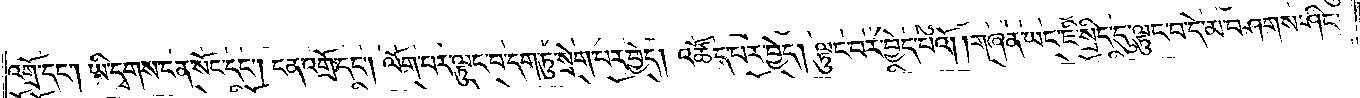འགྲོ་དང༌། ཡི་དྭགས་ངན་སོང་དང༌། ངན་འགྲོ་དང༌། ལོག་པར་ལྟུང་བ་དག་ཏུ་སྲེག་པར་བྱེད། འཚོད་པར་བྱེད། ལྟུང་བར་བྱེད་པའོ། །གཞན་ཡང་ཇི་སྲིད་དུ་ལྟུང་བ་དེ་མ་བཤགས་ཤིང་
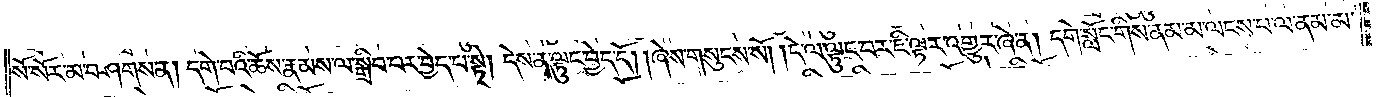སོ་སོར་མ་བཤགས་ན། དགེ་བའི་ཆོས་རྣམས་ལ་སྒྲིབ་པར་བྱེད་པ་སྟེ། དེས་ན་ལྟུང་བྱེད་དོ། །ཞེས་གསུངས་སོ། །དེ་ལ་ལྟུང་བར་ཇི་ལྟར་འགྱུར་ཞེ་ན། དགེ་སློང་གིས་ནམ་མ་ལངས་པ་ལ་ནམ་མ་
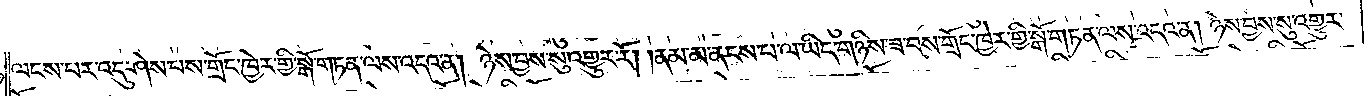ལངས་པར་འདུ་ཤེས་པས་གྲོང་ཁྱེར་གྱི་སྒོ་གཏན་ལས་འདའ་ན། ཉེས་བྱས་སུ་འགྱུར་རོ། །ནམ་མ་ནངས་པ་ལ་ཡིད་གཉིས་ཟ་བས་གྲོང་ཁྱེར་གྱི་སྒོ་གཏན་ལས་འདའ་ན། ཉེས་བྱས་སུ་འགྱུར་
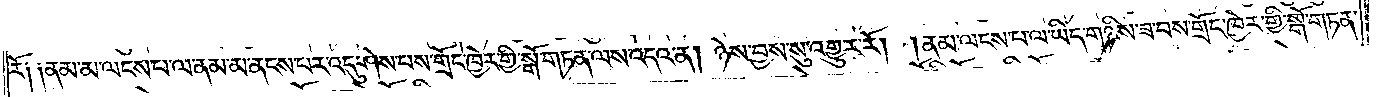རོ༑ ༑ནམ་མ་ལངས་པ་ལ་ནམ་མ་ནངས་པར་འདུ་ཤེས་པས་གྲོང་ཁྱེར་གྱི་སྒོ་གཏན་ལས་འདའ་ན། ཉེས་བྱས་སུ་འགྱུར་རོ། །ནམ་ལངས་པ་ལ་ཡིད་གཉིས་ཟ་བས་གྲོང་ཁྱེར་གྱི་སྒོ་གཏན་
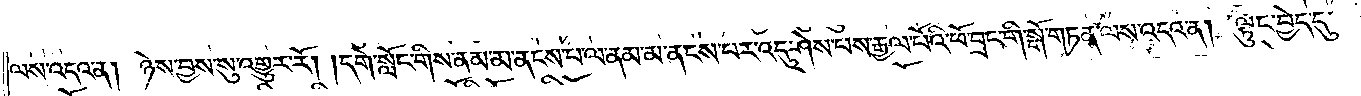ལས་འདའ་ན། ཉེས་བྱས་སུ་འགྱུར་རོ། །དགེ་སློང་གིས་ནམ་མ་ནངས་པ་ལ་ནམ་མ་ནངས་པར་འདུ་ཤེས་པས་རྒྱལ་པོའི་ཕོ་བྲང་གི་སྒོ་གཏན་ལས་འདའ་ན། ལྟུང་བྱེད་དུ་
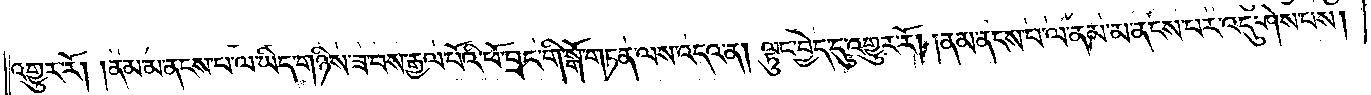འགྱུར་རོ། །ནམ་མ་ནངས་པ་ལ་ཡིད་གཉིས་ཟ་བས་རྒྱལ་པོའི་ཕོ་བྲང་གི་སྒོ་གཏན་ལས་འདའ་ན། ལྟུང་བྱེད་དུ་འགྱུར་རོ། །ནམ་ནངས་པ་ལ་ནམ་མ་ནངས་པར་འདུ་ཤེས་པས།
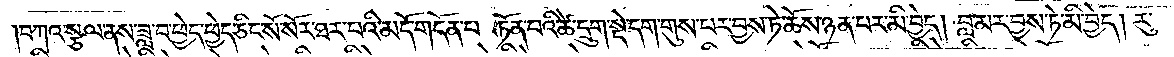བཀའ་སྩལ་ནས་ཟླ་བ་ཕྱེད་ཕྱེད་ཅིང་སོ་སོར་ཐར་པའི་མདོ་གདོན་པ་  ཏོན་པའི་ཚེ་དྲུག་སྡེ་དག་གུས་པར་བྱས་ཏེ་ཆོས་ཉན་པར་མི་བྱེད། བླ་མར་བྱས་ཏེ་མི་བྱེད། རུ་
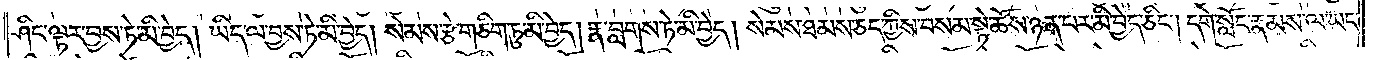ཤིང་ལྟར་བྱས་ཏེ་མི་བྱེད། ཡིད་ལ་བྱས་ཏེ་མི་བྱེད། སེམས་རྩེ་གཅིག་ཏུ་མི་བྱེད། རྣ་བླགས་ཏེ་མི་བྱེད། སེམས་ཐམས་ཅད་ཀྱིས་བསམ་སྟེ་ཆོས་ཉན་པར་མི་བྱེད་ཅིང༌། དགེ་སློང་རྣམས་ལ་ཡང་
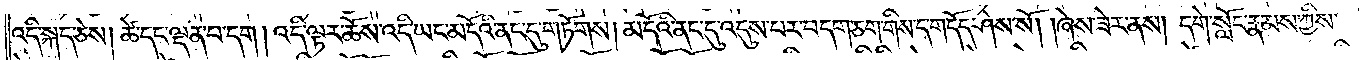འདི་སྐད་ཅེས། ཚེ་དང་ལྡན་པ་དག །འདི་ལྟར་ཆོས་འདི་ཡང་མདོའི་ནང་དུ་གཏོགས། མདོའི་ནང་དུ་འདུས་པར་བདག་ཅག་གིས་ད་གདོད་ཤེས་སོ། །ཞེས་ཟེར་ནས། དགེ་སློང་རྣམས་ཀྱིས་
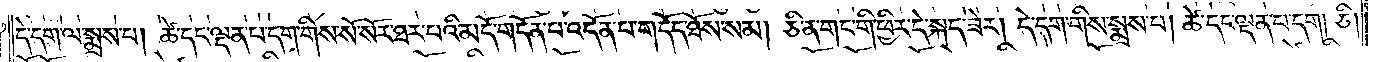དེ་དག་ལ་སྨྲས་པ། ཚེ་དང་ལྡན་པ་དག་གིས་སོ་སོར་ཐར་པའི་མདོ་གདོན་པ་འདོན་པ་གདོན་ཐོས་སམ། ཅི་ན་གང་གི་ཕྱིར་དེ་སྐད་ཟེར། དེ་དག་གིས་སྨྲས་པ། ཚེ་དང་ལྡན་པ་དག །ཅི།
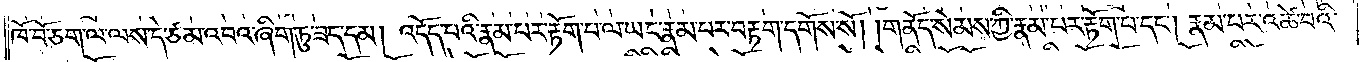ཁོ་བོ་ཅག་ལ་ལས་དེ་ཙམ་འབའ་ཞིག་ཏུ་ཟད་དམ། འདོད་པའི་རྣམ་པར་རྟོག་པ་ལ་ཡང་རྣམ་པར་བརྟག་དགོས་སོ། །གནོད་སེམས་ཀྱི་རྣམ་པར་རྟོག་པ་དང༌། རྣམ་པར་འཚེ་བའི་
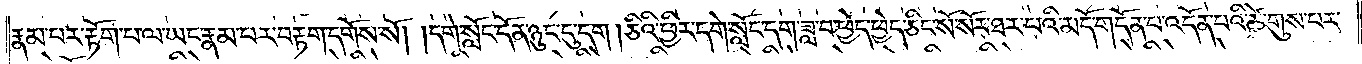རྣམ་པར་རྟོག་པ་ལ་ཡང་རྣམ་པར་བརྟག་དགོས་སོ། །དགེ་སློང་དོན་ཉུང་ངུ་དག །ཅིའི་ཕྱིར་དགེ་སློང་དག་ཟླ་བ་ཕྱེད་ཕྱེད་ཅིང་སོ་སོར་ཐར་པའི་མདོ་གདོན་པ་འདོན་པའི་ཚེ་གུས་པར་
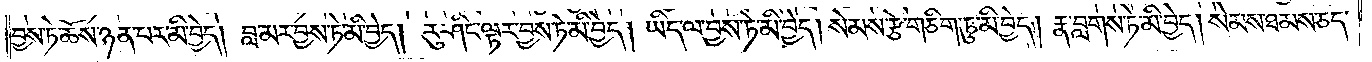བྱས་ཏེ་ཆོས་ཉན་པར་མི་བྱེད། བླ་མར་བྱས་ཏེ་མི་བྱེད། རུ་ཤིང་ལྟར་བྱས་ཏེ་མི་བྱེད། ཡིད་ལ་བྱས་ཏེ་མི་བྱེད། སེམས་རྩེ་གཅིག་ཏུ་མི་བྱེད། རྣ་བླགས་ཏེ་མི་བྱེད། སེམས་ཐམས་ཅད་
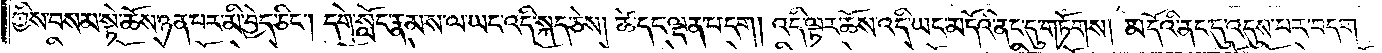ཀྱིས་བསམ་སྟེ་ཆོས་ཉན་པར་མི་བྱེད་ཅིང༌། དགེ་སློང་རྣམས་ལ་ཡང་འདི་སྐད་ཅེས། ཚེ་དང་ལྡན་པ་དག །འདི་ལྟར་ཆོས་འདི་ཡང་མདོའི་ནང་དུ་གཏོགས། མདོའི་ནང་དུ་འདུས་པར་བདག་
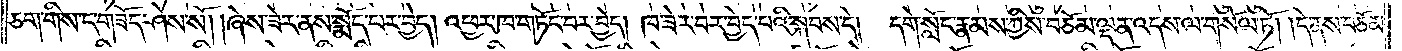ཅག་གིས་ད་གཟོད་ཤེས་སོ། །ཞེས་ཟེར་ནས་སྨོད་པར་བྱེད། འཕྱར་ཁ་གཏོང་བར་བྱེད། ཁ་ཟེར་བར་བྱེད་པའི་སྐབས་དེ། དགེ་སློང་རྣམས་ཀྱིས་བཅོམ་ལྡན་འདས་ལ་གསོལ་ཏོ། །དེ་ནས་བཅོམ་
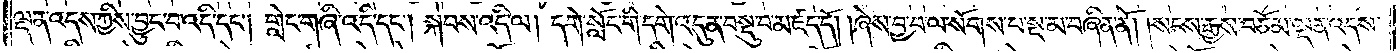ལྡན་འདས་ཀྱིས་བྱུང་བ་འདི་དང༌། གླེང་གཞི་འདི་དང༌། སྐབས་འདི་ལ། དགེ་སློང་གི་དགེ་འདུན་བསྡུ་བ་མཛད་དོ། །ཞེས་བྱ་བ་ལ་སོགས་པ་སྔ་མ་བཞིན་ནོ། །སངས་རྒྱས་བཅོམ་ལྡན་འདས་
